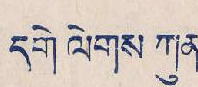དགེ ལེགས ཀུན་
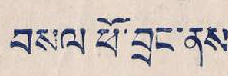བསལ ཕོ་བྲང་ནས་
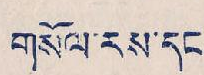གསོལ་རས་དང་
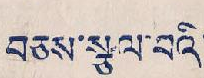བཅས་སྩལ་བའི་
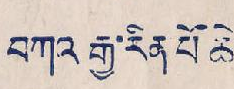བཀའ་རྒྱ་རིན་པོ ཆེ་
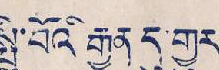སྤྱི་བོའི རྒྱན དུ་གྱུར་
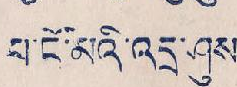པ་ངོ་མའི་འདྲ་ཤུས་
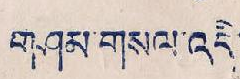གཤམ་གསལ་འདི་
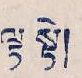ལྟ་སྟེ།
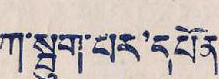ཀ་སྦུག་པར་དཔོན་
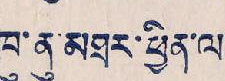ཁུ་ནུ་མཐར་ཕྱིན་ལ་
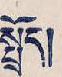སྤྲོད།
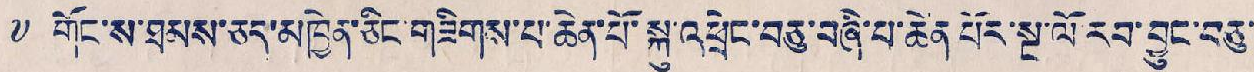༸ གོང་ས་ཐམས་ཅད་མཁྱེན་ཅིང་གཟིགས་པ་ཆེན་པོ་སྐུ་འཕྲེང་བཅུ་བཞི་པ་ཆེན་པོར་སྔ་ལོ་རབ་བྱུང་བཅུ་
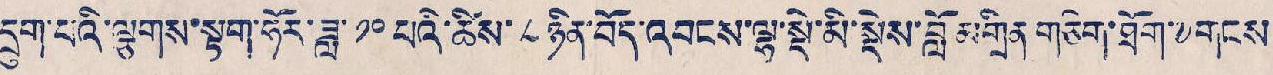དྲུག་པའི་ལྕགས་སྟག་ཧོར་ཟླ་ ༡༠ པའི་ཚེས་ ༨ ཉིན་བོད་འབངས་ལྷ་སྡེ་མི་སྡེས་བློ་མགྲིན་གཅིག་ཐོག་༸གངས་
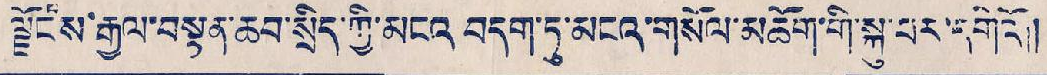ལྗོངས་རྒྱལ་བསྟན་ཆབ་སྲིད་ཀྱི་མངའ་བདག་ཏུ་མངའ་གསོལ་མཆོག་གི་སྐུ་པར་དགེའོ།།
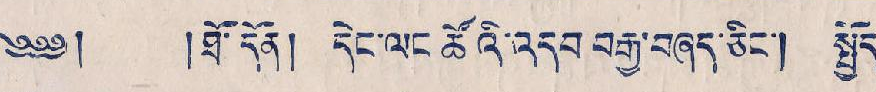༄༅༅། །ཐོ་དོན། དེང་ལང་ཚོའི་འདབ བརྒྱ་བཞད་ཅིང་། སྤྱོད་
